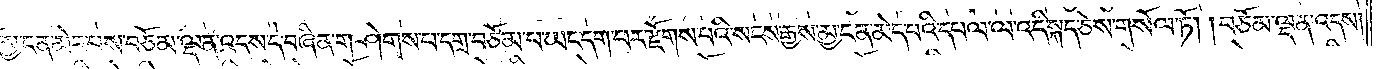པོ་མྱ་ངན་མེད་པས་བཅོམ་ལྡན་འདས་དེ་བཞིན་གཤེགས་པ་དགྲ་བཅོམ་པ་ཡང་དག་པར་རྫོགས་པའི་སངས་རྒྱས་མྱ་ངན་མེད་པའི་དཔལ་ལ་འདི་སྐད་ཅེས་གསོལ་ཏོ། །བཅོམ་ལྡན་འདས།
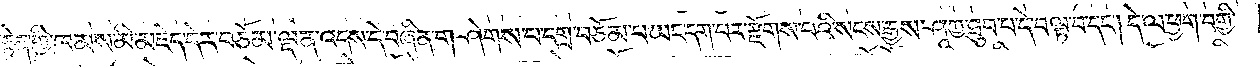རྟེན་གྱི་ཁམས་མི་མཇེད་དེར་བཅོམ་ལྡན་འདས་དེ་བཞིན་གཤེགས་པ་དགྲ་བཅོམ་པ་ཡང་དག་པར་རྫོགས་པའི་སངས་རྒྱས་ཤཱཀྱ་ཐུབ་པ་དེ་བལྟ་བ་དང༌། དེ་ལ་ཕྱག་བགྱི་
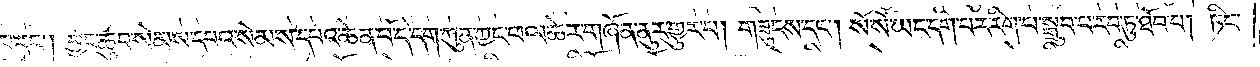པ་དང༌། བྱང་ཆུབ་སེམས་དཔའ་སེམས་དཔའ་ཆེན་པོ་དེ་དག་ཀུན་ཀྱང་ཕལ་ཆེར་གཞོན་ནུར་གྱུར་པ། གཟུངས་དང༌། སོ་སོ་ཡང་དག་པར་རིག་པ་སྒྲུབ་པ་རབ་ཏུ་ཐོབ་པ། ཏིང་
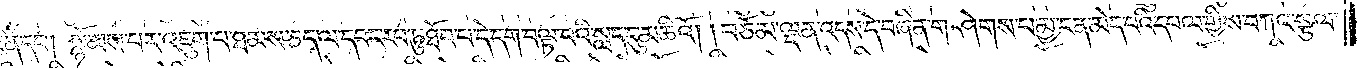འཛིན་དང༌། སྙོམས་པར་འཇུག་པ་ཐམས་ཅད་ལ་དབང་རབ་ཏུ་ཐོབ་པ་དེ་དག་བལྟ་བའི་སླད་དུ་མཆིའོ། །བཅོམ་ལྡན་འདས་དེ་བཞིན་གཤེགས་པ་མྱ་ངན་མེད་པའི་དཔལ་གྱིས་བཀའ་སྩལ་
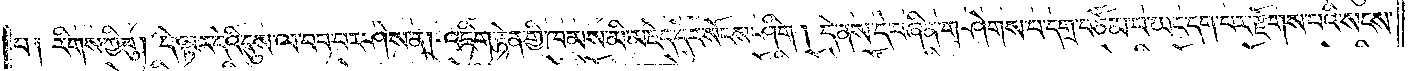པ༑ རིགས་ཀྱི་བུ། དེ་ལྟར་དེའི་དུས་ལ་བབ་པར་ཤེས་ན། འཇིག་རྟེན་གྱི་ཁམས་མི་མཇེད་དེར་སོངས་ཤིག། དེ་ནས་དེ་བཞིན་གཤེགས་པ་དགྲ་བཅོམ་པ་ཡང་དག་པར་རྫོགས་པའི་སངས་
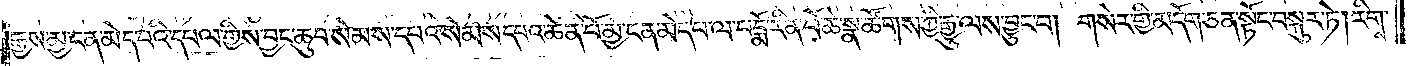རྒྱས་མྱ་ངན་མེད་པའི་དཔལ་གྱིས་བྱང་ཆུབ་སེམས་དཔའ་སེམས་དཔའ་ཆེན་པོ་མྱ་ངན་མེད་པ་ལ་པདྨོ་རིན་པོ་ཆེ་སྣ་ཚོགས་ཀྱི་རྒྱུ་ལས་བྱུང་བ། གསེར་གྱི་མདོག་ཅན་སྟོང་བསྐུར་ཏེ། རིགས་
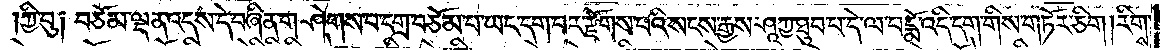ཀྱི་བུ༑ བཅོམ་ལྡན་འདས་དེ་བཞིན་གཤེགས་པ་དགྲ་བཅོམ་པ་ཡང་དག་པར་རྫོགས་པའི་སངས་རྒྱས་ཤཱཀྱ་ཐུབ་པ་དེ་ལ་པདྨོ་འདི་དག་གིས་གཏོར་ཅིག །རིགས་
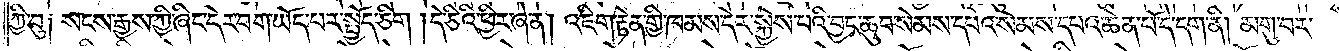ཀྱི་བུ༑ སངས་རྒྱས་ཀྱི་ཞིང་དེར་བག་ཡོད་པར་སྤྱོད་ཅིག །དེ་ཅིའི་ཕྱིར་ཞེ་ན། འཇིག་རྟེན་གྱི་ཁམས་དེར་སྐྱེས་པའི་བྱང་ཆུབ་སེམས་དཔའ་སེམས་དཔའ་ཆེན་པོ་དེ་དག་ནི། མགུ་བར་
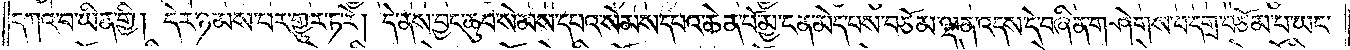དཀའ་བ་ཡིན་གྱི། དེར་ཉམས་པར་གྱུར་ཏ་རེ། དེ་ནས་བྱང་ཆུབ་སེམས་དཔའ་སེམས་དཔའ་ཆེན་བོ་མྱ་ངན་མེད་པས་བཅོམ་ལྡན་འདས་དེ་བཞིན་གཤེགས་པ་དགྲ་བཅོམ་པ་ཡང་
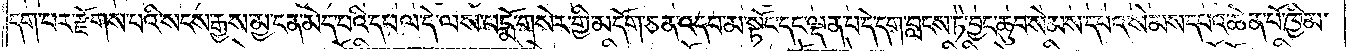དག་པར་རྫོགས་པའི་སངས་རྒྱས་མྱ་ངན་མེད་པའི་དཔལ་དེ་ལས་པདྨོ་གསེར་གྱི་མདོག་ཅན་འདབ་མ་སྟོང་དང་ལྡན་པ་དེ་དག་བླངས་ཏེ་བྱང་ཆུབ་སེམས་དཔའ་སེམས་དཔའ་ཆེན་པོ་ཁྱིམ་
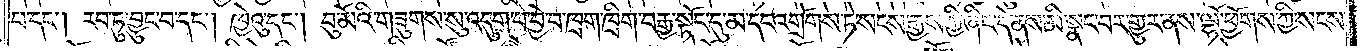པ་དང༌། རབ་ཏུ་བྱུང་བ་དང༌། ཁྱེའུ་དང༌། བུ་མོའི་གཟུགས་སུ་འདུག་པ་བྱེ་བ་ཁྲག་ཁྲིག་བརྒྱ་སྟོང་དུ་མ་དང་འགྲོགས་ཏེ་སངས་རྒྱས་ཀྱི་ཞིང་དེ་ནས་མི་སྣང་བར་གྱུར་ནས་ལྷོ་ཕྱོགས་ཀྱི་སངས་
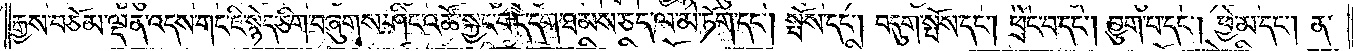རྒྱས་བཅོམ་ལྡན་འདས་གང་ཇི་སྙེད་ཅིག་བཞུགས་ཤིང་འཚོ་སྐྱང་བ་དེ་དག་ཐམས་ཅད་ལ་མེ་ཏོག་དང༌། སྤོས་དང༌། བདུག་སྤོས་དང༌། ཕྲེང་བ་དང༌། བྱུག་པ་དང༌། ཕྱེ་མ་དང༌། ན་
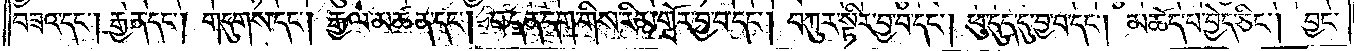བཟའ་དང༌། རྒྱན་དང༌། གདུགས་དང༌། རྒྱལ་མཚན་དང༌། བ་དན་དག་གིས་རིམ་གྲོར་བྱ་བ་དང༌། བཀུར་སྟིར་བྱ་བ་དང༌། ཕུ་དུད་དུ་བྱ་བ་དང༌། མཆོད་པ་བྱེད་ཅིང༌། བྱང་
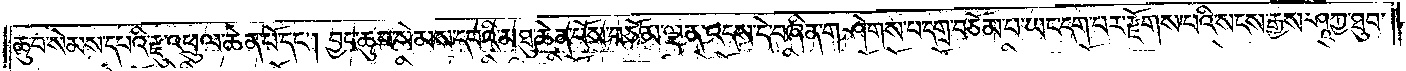ཆུབ་སེམས་དཔའི་རྫུ་འཕྲུལ་ཆེན་པོ་དང༌། བྱང་ཆུབ་སེམས་དཔའི་མཐུ་ཆེན་བོས་བཅོམ་ལྡན་འདས་དེ་བཞིན་གཤེགས་པ་དགྲ་བཅོམ་པ་ཡང་དག་པར་རྫོགས་པའི་སངས་རྒྱས་ཤཱཀྱ་ཐུབ་
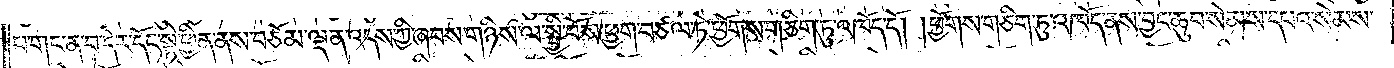པ་གང་ན་བ་དེར་དོང་སྟེ་ཕྱིན་ནས་བཅོམ་ལྡན་འདས་ཀྱི་ཞབས་གཉིས་ལ་སྤྱི་བོས་ཕྱག་བཙལ་ཏེ་ཕྱོགས་གཅིག་ཏུ་འཁོད་དོ། །ཕྱོགས་གཅིག་ཏུ་འཁོད་ནས་བྱང་ཆུབ་སེམས་དཔའ་སེམས་
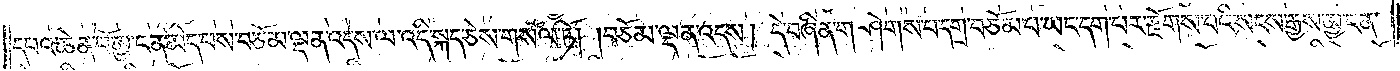དཔའ་ཆེན་པོ་མྱ་ངན་མེད་པས་བཅོམ་ལྡན་འདས་ལ་འདི་སྐད་ཅེས་གསོལ་ཏོ། །བཅོམ་ལྡན་འདས། དེ་བཞིན་གཤེགས་པ་དགྲ་བཅོམ་པ་ཡང་དག་པར་རྫོགས་པའི་སངས་རྒྱས་མྱ་ངན་
